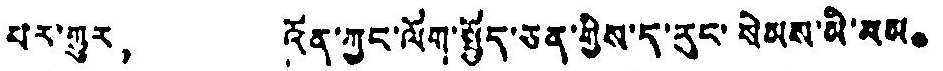པར་གྱུར， འོན་ཀྱང་ལོག་སྤྱོད་ཅན་གྱིས་ད་རུང་སེམས་མི་སམ。
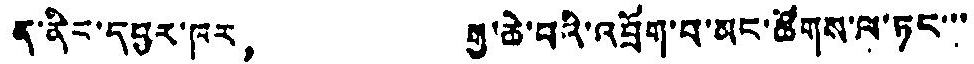ན་ནིང་དབྱར་ཁར， རྒྱ་ཆེ་བའི་འབྲོག་པ་མང་ཚོགས་ལ་ཏང་་་
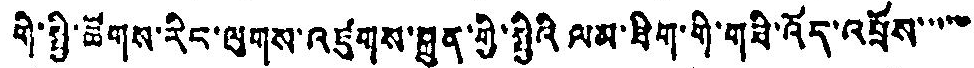གི་སྤྱི་ཚོགས་རིང་ལུགས་འཛུགས་བྲུན་གྱི་སྤྱིའི ལམ་ཐིག་གི་གཟི་འོད་འབྲོས་་་་་་
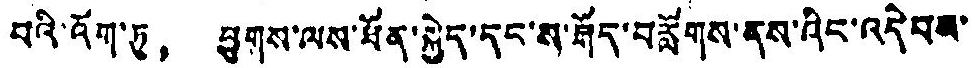བའི་འོག་ཏུ， ཕྱུགས་ལས་ཐོན་སྐྱེད་དང་ས་ཤོད་བརློགས་ནས་ཞིང་འདེབསམ་
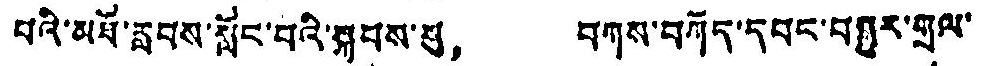པའི་མཐོ་རླབས་སློང་བའི་སྐབས་སུ， བཀས་བཀོད་དབང་བསྐྱུར་གྲལ་
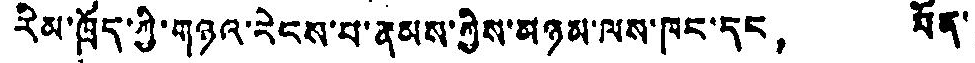རིམ་ཁྲོད་ཀྱི་གཉའ་རེངས་པ་རྣམས་ཀྱིས་མཉམ་ལས་ཁང་དང， ཐོན་
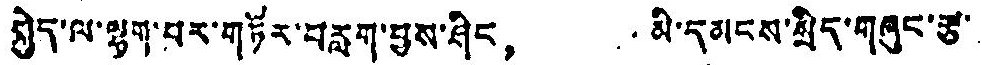སྐྱེད་ལ་ལྷག་པར་གཏོར་བརླག་བྱས་ཤིང， མི་དམངས་སྲིད་གཞུང་རྩ་
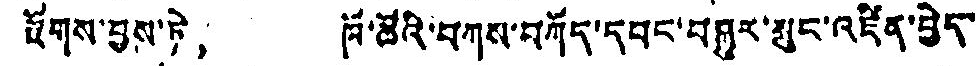ཕོགས་བྱས་ཏེ， ཁོ་ཚོའི་བཀས་བཀོད་དབང་བསྐྱར་སྨུང་འཛིན་བྱེད་
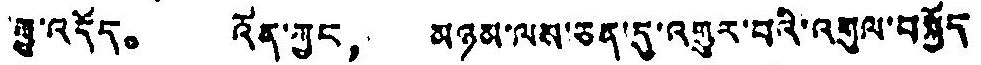རྒྱུ་འདོད。 འོན་ཀྱང， མཉམ་ལས་ཅན་དུ་འགྱུར་བའི་འགུལ་བསྐྱོད་
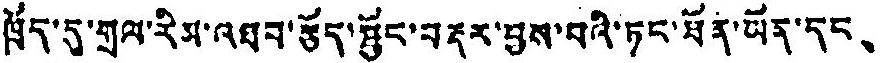ཁྲོད་དུ་གྲལ་རིམ་འཐབ་རྩོད་སྦྱོང་བརྡར་བྱས་པའི་ཏང་ཐོན་ཡོན་དང、
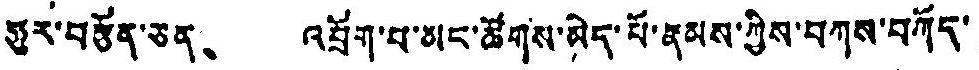ཧུར་བརྩོན་ཅན、 འབྲོག་པ་མང་ཚོགས་མེད་པོ་རྣམས་ཀྱིས་བཀས་བཀོད་
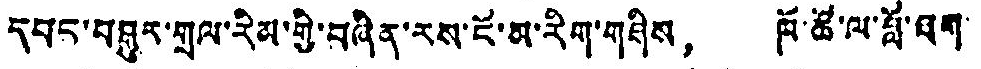དབང་བསྒྱུར་གྲལ་རིམ་གྱི་བཞིན་རས་ངོ་མ་རིག་གཤིས， ཁོ་ཚོ་ལ་བློ་ཐག་
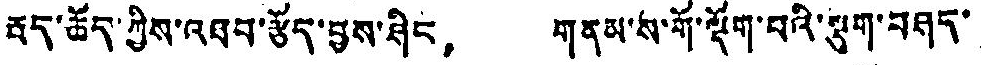རྦད་ཆོད་ཀྱིས་འཐབ་རྩོད་བྱས་ཤིང， གནམ་ས་གོ་ལྡོག་པའི་སྡུག་བཤད་
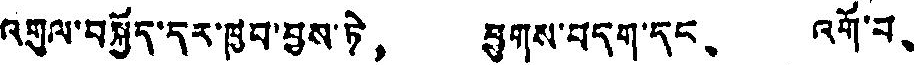འགུལ་བསྐྱོད་དར་ཁྱབ་བྱས་ཏེ， ཕྱུགས་བདག་དང、 འགོ་བ、
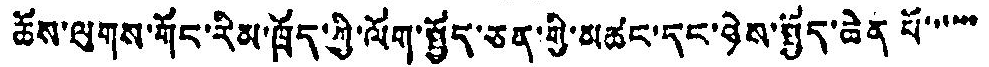ཆོས་ལུགས་གོང་རིམ་ཁྲོད་ཀྱི་ལོག་སྤྱོད་ཅན་གྱི་མཚང་དང་ཉེས་སྤྱོད་ཆེན་པོ་་་་་་
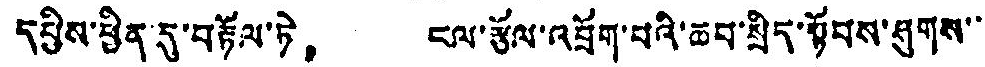དཔྱིས་ཕྱིན་དུ་བརྟོལ་ཏེ， ངལ་རྩོལ་འབྲོག་པའི་ཆབ་སྲིད་སྟོབས་ཤུགས་་
